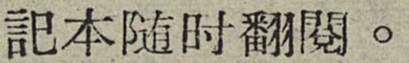記本随时翻閱。
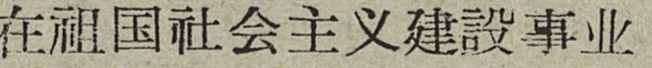在祖国社会主义建設事业
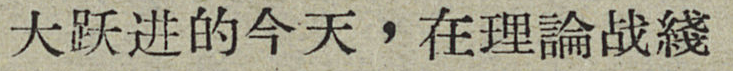大跃进的今天，在理論战綫
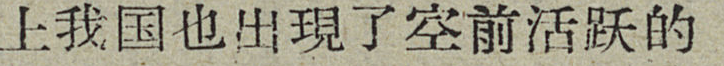上我国也出現了空前活跃的
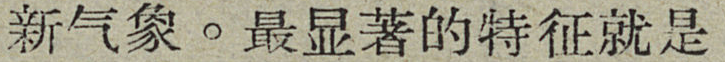新气象。最显著的特征就是
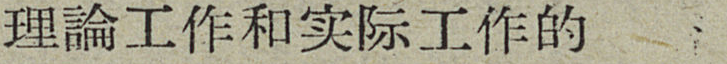理論工作和实际工作的
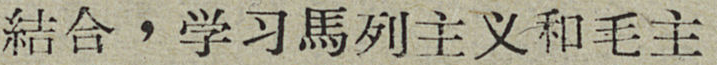結合，学习馬列主义和毛主
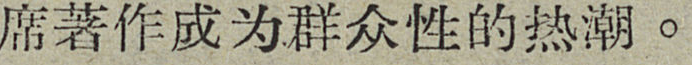席著作成为群众性的热潮。
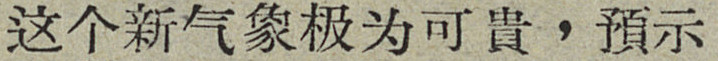这个新气象极为可貴，預示
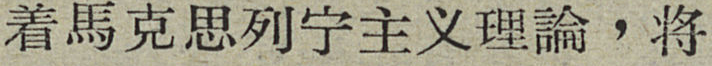着馬克思列宁主义理論，将
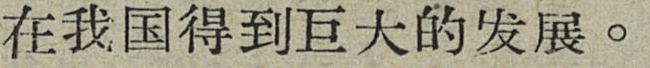在我国得到巨大的发展。
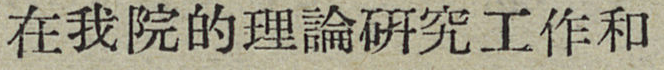在我院的理論研究工作和
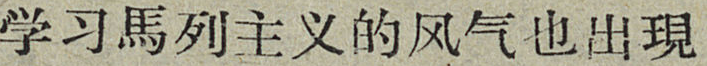学习馬列主义的风气也出現
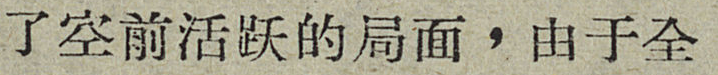了空前活跃的局面，由于全
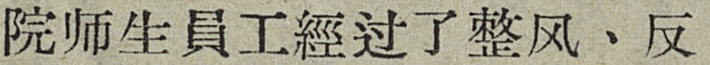院师生員工經过了整风、反
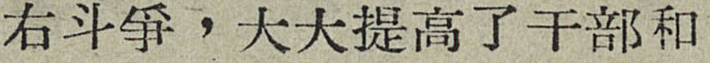右斗爭，大大提高了干部和
